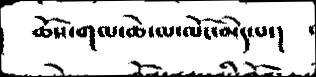ཆོས་གལ་ཆེ་ལ་ལོང་མེད་པ་།
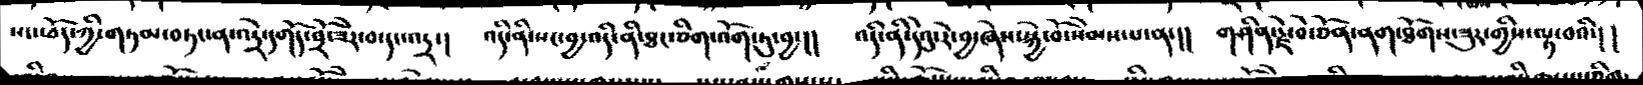སང་ཕོད་ཀྱི་གཏམ་བཏང་ན་འདྲེ་དགོད་བྲོ་ཟེར་བ་དང་འདྲ་།  འདི་ནི་སང་བྱ་འདི་ནི་ཐང་ཅིག་འོག་ཏུ་བྱ་།།  འདི་ནི་དེའུ་རེ་བྱ་ཞེས་སྐྱེ་བོ་སེམས་པ་ན་།།  གཤིན་རྗེ་བེ་ཅོན་ནག་ཐོགས་ཟུར་གྱིས་ལྟ་བའི་།།
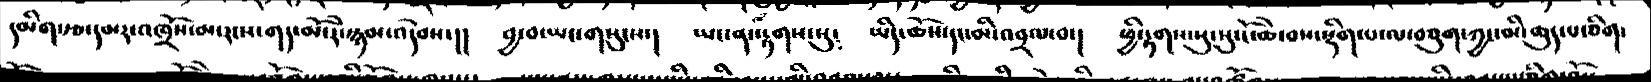དམིག་རྩ་དམར་འཁྲོས་མ་རངས་གད་མོ་རེ་སྙམ་འདེབས་།།  བྱ་བ་ཡང་གསུངས།  ཡང་ན་རྟགས་སུ༴  ཡིད་ཆོས་དང་མི་འབྲལ་བ་།  ཕྱི་རྟགས་སུ་སུ་ངོ་ཆེ་བས་སྡིག་པ་ལ་བཅུག་ཀྱང་མི་ཆུད་པ་ཅིག་
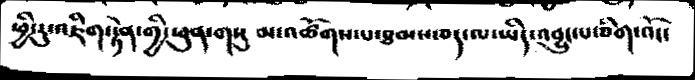ཕྱི་རུ་འཇིག་རྟེན་གྱི་ཕུན་གསུམ་འཚོགས་པ་ཐབས་ཅད་ལ་ཡིད་འབྱུང་པ་ཅིག་འོང་
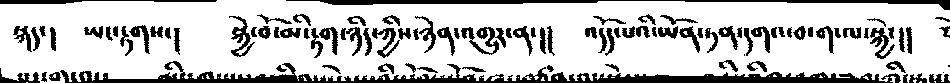སྐད་།  ཡང་རྟགས་།  སྐྱེ་བོ་མི་རྟག་ཉིད་ཀྱིས་ཉེན་འགྱུར་ན་།།  འདོད་པའི་ཡོན་ཏན་དགའ་བ་ག་ལ་སྐྱེ་།།
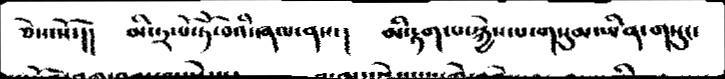ཅེས་སོ་།།  མི་ཏྲ་པོ་ཏོ་བའི་ཞལ་ནས་།  མི་རྟག་པ་སྐྱེས་པ་གསུམ་ཡིན་གསུང་
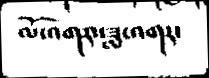ལོ་འགར་ཟླ་འགར་
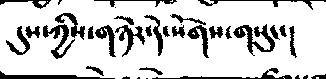དུས་ཀྱིས་གཉེར་དེ་སོགས་གསུང་།
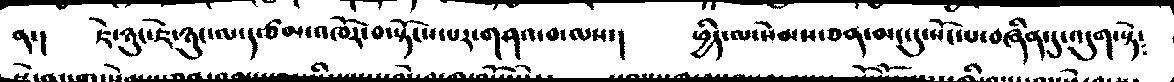ན་།  ཇེ་ཉུང་ཇེ་ཉུང་ལ་ད་ཙམ་འཁོར་བ་སྟོངས་པར་གཤའ་བ་ལས་།  ཕྱིད་ལ་སེམས་ཅན་མང་དུ་སོང་པ་བཞིན་དུ་འདུག་སྟེ༴
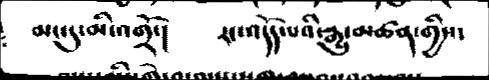མང་དུ་མི་འགྲོ་།  རང་འདོད་པའི་རྒྱུ་མཚན་གྱིས་
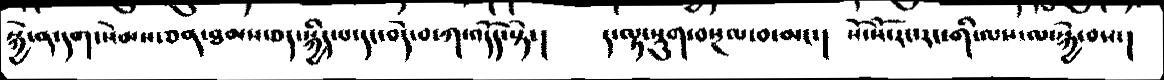སྐྱེ་ན་དག་སེམས་ཅན་ཐམས་ཅད་སྐྱིད་པ་དང་བདེ་བ་ཀ་འདོད་སྟེ་།   ད་ལྟ་སྡུག་བསྔལ་བ་མང་།  སོ་སོ་རང་རང་གི་ལས་ལ་སྐྱེ་བས་།
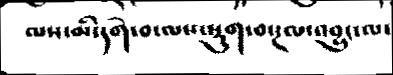ལས་མི་དགེ་བ་ལས་སྡུག་བསྔལ་འབྱུང་ལ་
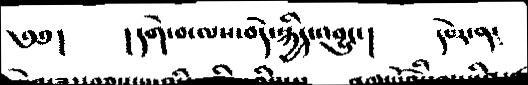༄༅།  ། དགེ་བ་ལས་བདེ་སྐྱིད་འབྱུང་།  དཔེར་ན༴
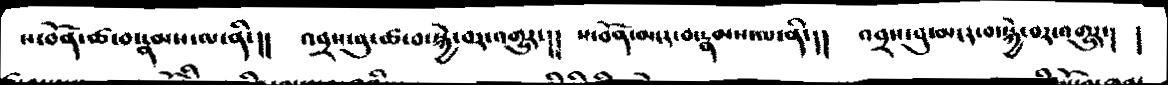ས་བོན་ཚ་བ་རྣམས་ལ་ནི་།།  འབྲས་བུ་ཚ་བ་སྐྱེ་བར་འགྱུར་།།  ས་བོན་མངར་བ་རྣམས་ལ་ནི་།།  འབྲས་བུ་མངར་བ་སྐྱེ་བར་འགྱུར་།  །
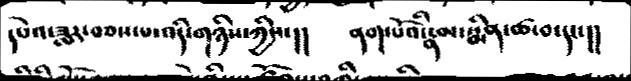དཔེའ་ཟླར་བཅས་པ་འདི་གཉིས་ཀྱིས་།།  ནག་པོའི་རྣམ་སྨིན་ཚ་བ་དང་།།
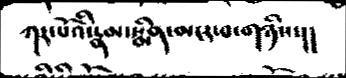ཀར་པོ་འི་རྣམ་སྨིན་མངར་བ་གཉིས་།།
